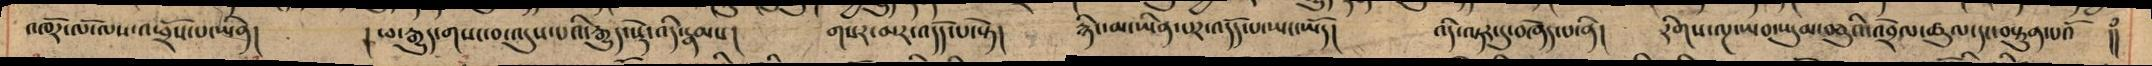འཁོར་ལོ་ལས་འཕྲོས་པ་ཡིན། །ཕ་རྒྱུད་གསང་བ་འདུས་པཔའི་རྒྱུད་སྡེ་འདི་རྣམས། གསར་མར་འདོད་པ་སྟེ། རྙིང་མ་ཡིན་པར་འདོད་པ་ཡང་ཡོད། འདི་ལྟར་དུ་བཞེད་པ་ནི། རིགས་ལྔ་ཡབ་ཡུམ་བཅུའི་འབྲེལ་ཚུལ་དང་བསྟུན་པའོ །།
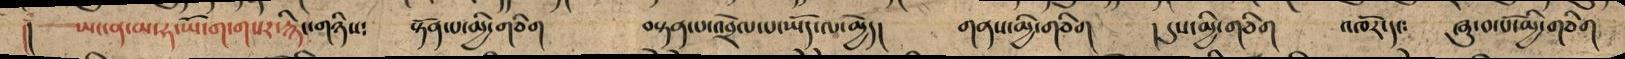།། ཡང་ན་མ་ཧ་ཡོ་ག་གསར་རྙིང་གཉིས༴ སྟོན་པ་མྱི་གཅིག བསྟན་པ་འབྲེལ་པ་ཡོད་ལ་མྱེད། གནས་མྱི་གཅིག །དུས་མྱི་གཅིག འཁོར་དང༴ ཞུ་བ་པོ་མྱི་གཅིག
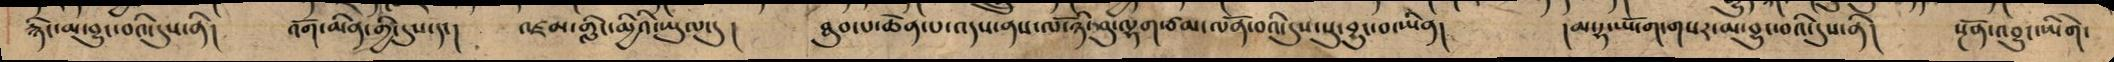རྙིང་མ་བྱུང་བའི་དུས་ནི། འོག་མིན་གྱི་དུས་དང། འཛམ་གླིང་མྱིའི་ཡུལ་དུ། ཐུབ་པ་ཆེན་པ་འདས་ནས་ལོ་ཉི་ཤུ་ལྷག་ཙམ་ལོན་བའི་དུས་སུ་བྱུང་བ་ཡིན། །མ་ཧ་ཡོ་ག་གསར་མ་བྱུང་བའི་དུས་ནི། སྔོན་འབྱུང་ཡིགེ་
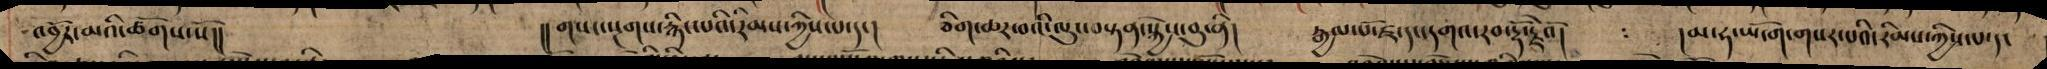འབྱོར་མའི་ཚོགས་སོ།། །།གསང་སྔགས་རྙིང་པའི་རིམས་ཀྱིས་པ་དང། ཅིག་ཆར་བའི་ལུང་བསྟན་སྐྱེས་བུ་ནི། རྒྱལ་པོ་ཛ་དང་དགའ་རབ་རྡོ་རྗེའོ། །མ་ཧ་ཡོ་ག་གསར་པའི་རིམས་ཀྱིས་པ་དང
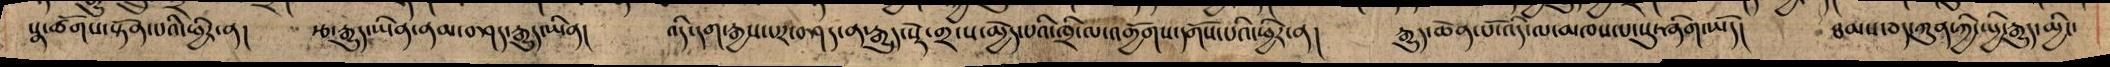སྣ་ཚོགས་སྟོན་པའི་ཕྱིར་ན། རྩ་རྒྱུད་ཡིན་ནམ་བཤད་རྒྱུད་ཡིན། འདི་དག་རྒྱས་པར་བཤད་ན་རྒྱུད་སྡེ་གྲངས་མྱེད་པའི་ཁྲི་ལ་འགྱོགས་དགོས་པའི་ཕྱིར་ན། རྒྱུད་ཆེན་པོ་འདི་ལ་མཁས་པ་སུ་ཞིག་ཡོད། ཐམས་ཅད་ཀུན་ཀྱི་སྤྱི་རྒྱུད་མྱིང་
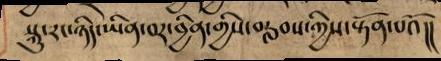སྐུ་རང་ཉིད་ཡིན་བར་བྱིན་གྱིས་བརླབས་ཀྱིས་སྟོན་པའོ།།
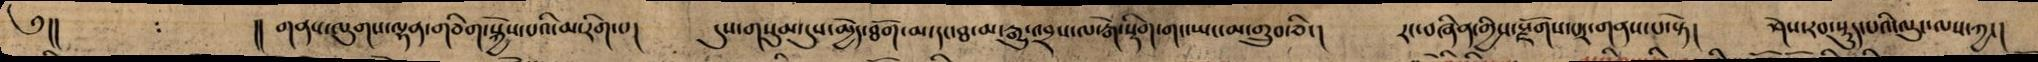༅།། །།གནས་ལུགས་ལྷན་གཅིག་སྐྱེས་པའི་མ་རིག་པ། དུས་གསུམ་དུས་མྱེད་ཐོག་མ་དང་ཐ་མ་རྒྱུ་འབྲས་ལ་རྒེ་སྡིག་གང་ཡང་མ་གྲུབ་ཅིང། རང་བཞིན་གྱིས་སྫོགས་པར་གནས་པ་སྟེ། ཤེས་རབ་སྡུད་པའི་ལུང་ལས་ཀྱང།
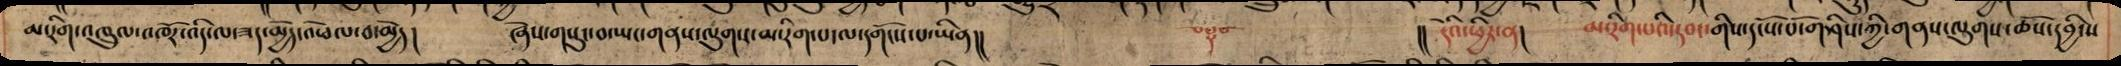མ་རིག་འཁྲུལ་འཁོར་འདི་ལ་ཟད་མྱེད་འཕེལ་བ་མྱེད། ཞེས་གསུང་བ་ཡང་གནས་ལུགས་མ་རིག་པ་ལ་དགོངས་པ་ཡིན།། །། དེའི་ཕྱིར་ན། མ་རིག་པའི་དབང་གིས་དངོས་པོ་གཤིས་ཀྱི་གནས་ལུགས་ཆོས་དབྱིངས
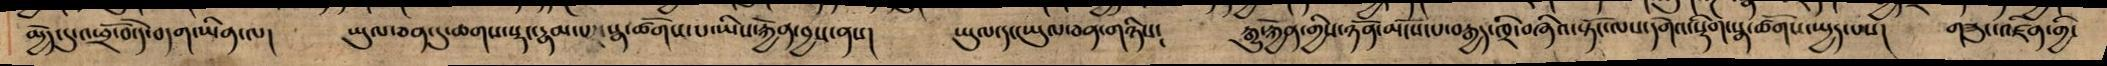མྱེད་དུ་འཕྲོ་བ་དེ་བདག་ཡིན་ལ། ཡུལ་ཅན་དུ་ཆགས་སྡང་རྣམ་པར་སྣ་ཚོགས་པ་ཡིས་རྐྱེན་བྱས་ནས། ཡུལ་དང་ཡུལ་གཉིས། རྒྱུ་རྐྱེན་གྱིས་ཉོན་མོངས་བརྒྱད་ཁྲི་བཞིའ་སྟོང་ལས་དགེའ་སྡིག་སྣ་ཚོགས་སྤྱད་པས། གཟུང་འཛིན་གྱི་
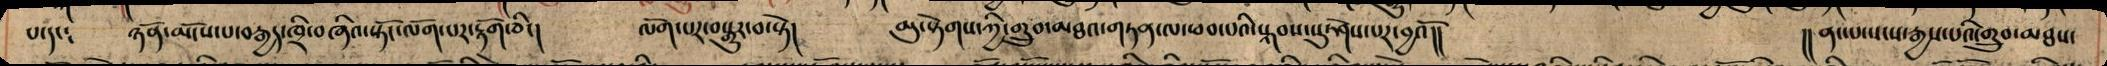པ་དང༴ ཉོན་མོངས་པ་བརྒྱད་ཁྲི་བཞིའ་སྟོང་ལོག་པར་རྟོག་ཅིང། ལོག་པར་བསྒྱུར་བ་སྟེ། མུ་སྟེགས་ཀྱི་གྲུབ་མཐའ་གཏན་ལ་ཕབ་པའི་སྐབས་སུ་ཤེས་པར་བྱའོ།། །།ནང་པ་སངས་རྒྱས་པའི་གྲུབ་མཐས་
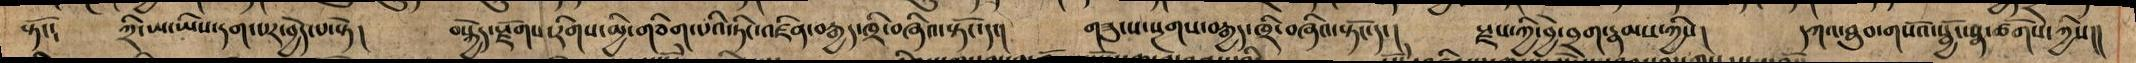སྟོང༴ ཀྲི་ཡ་ཡིས་དག་པར་བྱེད་པ་སྟེ། བསྐྱེད་སྫོགས་རིགས་མྱི་གཅིག་པའི་ཏིང་འཛིན་བརྒྱད་ཁྲི་བཞིའ་སྟོང་དང། གཟུངས་སྔགས་བརྒྱད་ཁྲི་བཞིའ་སྟོང་དང། གཟུངས་སྔགས་བརྒྱད་ཁྲི་བཞིའ་སྟོང་དང། སྫས་ཀྱི་བྱེ་བྲག་རྣམས་ཀྱིས། དཀའ་ཐུབ་གསོའ་སྦྱོང་སྣ་ཚོགས་ཀྱིས།།
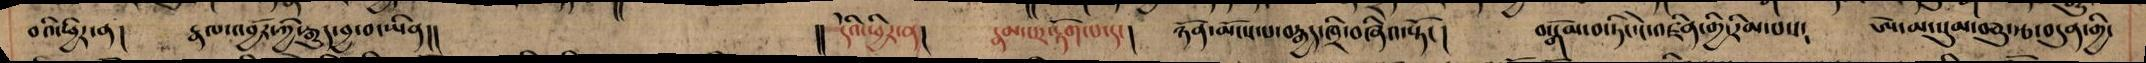བའི་ཕྱིར་ན། རྣལ་འབྱོར་ཀྱི་རྒྱུད་བྱ་བ་ཡིན།། །། དེའི་ཕྱིར་ན།རྣམ་པར་རྟོག་པ་དང། ཉོན་མོངས་པ་བརྒྱད་ཁྲི་བཞིའ་སྟོང། བསྒོམ་བ་ཏིང་ངར་འཛིན་གྱི་རིམ་པས༴ ཨེ་མ་སུམ་བཅུ་རྩ་བདུན་གྱི་
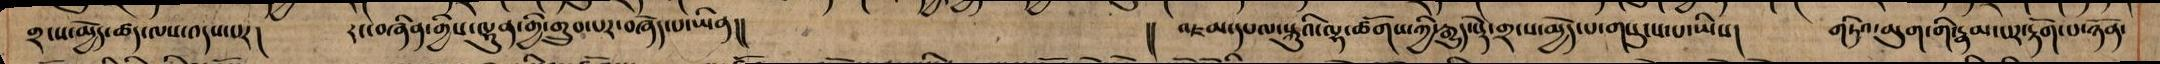གྲངས་མྱེད་ཚད་ལས་འདས་པར། རང་བཞིན་གྱིས་ལྷུན་གྱི་གྲུབ་པར་བཞེད་པ་ཡིན།། །། འཇམ་དཔལ་སྐུའི་ལྷ་ཚོགས་ཀྱི་རྒྱུད་སྡེ་གྲངས་མྱེད་པ་གསུངས་པ་ཡིས། གཏིའ་མུག་གི་རྣམ་པར་རྟོག་པ་ཉོན་
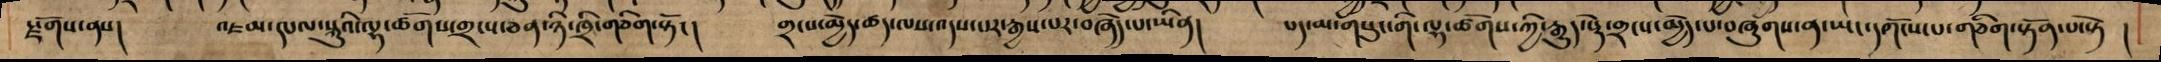སྫོགས་ནས། འཇམ་དཔལ་སྐུའི་ལྷ་ཚོགས་གྲངས་ཅན་ཉི་ཁྲི་གཅིག་སྟོང། གྲངས་མྱེད་ཚད་ལས་འདས་པར་རྒྱས་པར་བཞེད་པ་ཡིན། པད་མ་གསུང་གི་ལྷ་ཚོགས་ཀྱི་རྒྱུད་སྡེ་གྲངས་མྱེད་པ་བཞུགས་ན་ཡང་དགོངས་པ་གཅིག་སྟོན་པ་སྟེ །
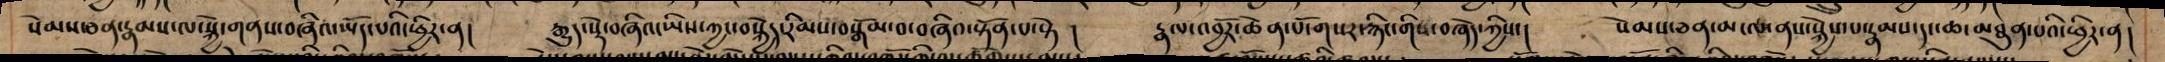སེམས་ཅན་རྣམས་ལ་སྐྱེ་གནས་བཞིའ་ཡོད་པའི་ཕྱིར་ན། རྒྱུད་སྡེ་བཞིའ་ཡིས་ཀྱང་བསྐྱེད་རིམས་བསྒོམ་བཞིའ་སྟོན་པ་སྟེ། རྣལ་འབྱོར་ཆེན་པོ་གསར་རྙིང་གིས་བཞེད་ཀྱིས་། སེམས་ཅན་མ་ལ་ནས་སྐྱེས་པ་རྣམས་དང་ཆ་མཐུན་པའི་ཕྱིར་ན།
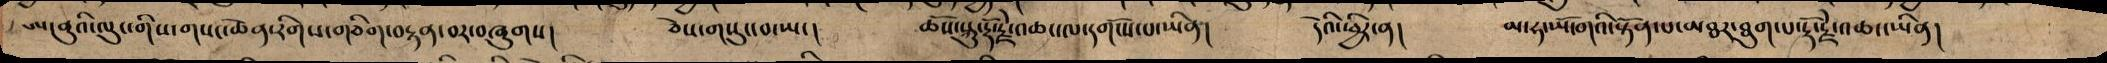ཨ་ནུའི་ལུང་གིས་གསང་ཆེན་རིགས་གཅིག་བརྟན་བར་བཞུགས། ཅེས་གསུང་བ་ཡང། ཆོས་སྐུ་རྡོ་རྗེ་འཆང་ལ་དགོངས་པ་ཡིན། དེའི་ཕྱིར་ན། མ་ཧ་ཡོ་གའི་སྟོན་པ་མཐར་ཐུག་པ་རྡོ་རྗེ་འཆང་ཡིན།
